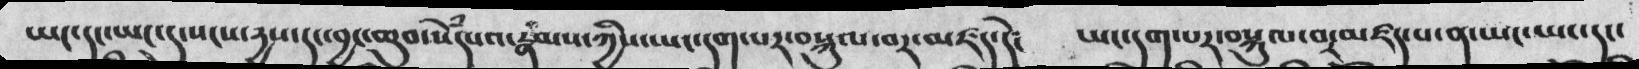ཡང་དང་ཡང་སངས་རྱས་དང་བྱང་ཆུབ་སེཾདཔའ་རྣམས་ཀྱིས་ཡང་དག་པར་བསྐུལ་བར་མཛད་དེ༴ ཡང་དག་པར་བསྐུལ་བར་མཛད་པ་ན་ཡང་ཡང་དང་
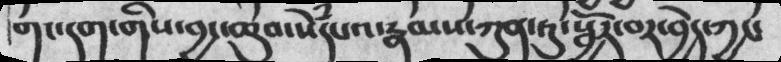གང་དག་གིས་བྱང་ཆུབ་སེཾདཔའ་རྣམས་ཀུན་ཏུ་སྦྱོར་བར་བྱེད་ཀྱང་
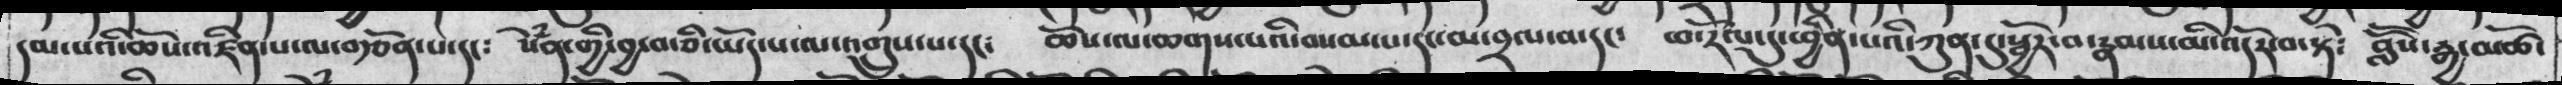དམ་པའི་ཆོས་འཛིན་པ་ལ་བརྩོན་པ་དང༴  སེཾན་གྱི་བྱ་བ་ཅི་ཡོད་པ་ལ་འགྲུས་པ་དང༴  ཆོས་ལ་ཆགས་པའི་བསམ་པ་དང་མ་བྲལ་བ་དང༴  ཕ་རོལ་དུ་ཕྱིན་པའི་ཀུན་དུ་སྦྱོར་བ་རྣམས་མི་འདོར་བ་སྟེ༴  བླཽས་རྒྱ་མཚོ་
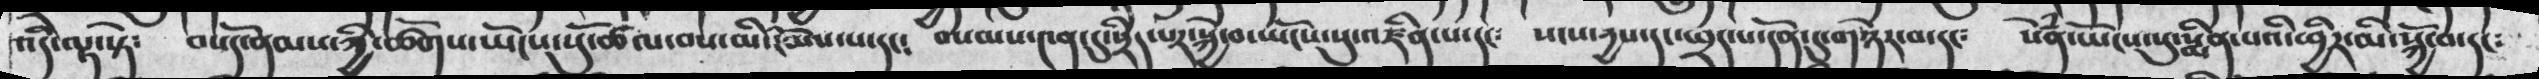འདི་ལྟ་སྟེ༴ བསོད་ནམས་ཀྱི་ཚོགས་ཡོངས་སུ་ཚོལ་བས་མི་ངོམས་པ་དང༴  བསམས་༤ན་དུ་སྲིད་པར་སྐྱེ་བ་ཡོངས་སུ་འཛིན་པ་དང༴  སངས་རྱས་དང་ཕྲད་པ་དོན་དུ་གཉེར་བ་དང༴  སེཾན་ཡོངས་སུ་སྨིན་པའི་ཕྱིར་མི་སྐྱོ་བ་དང༴
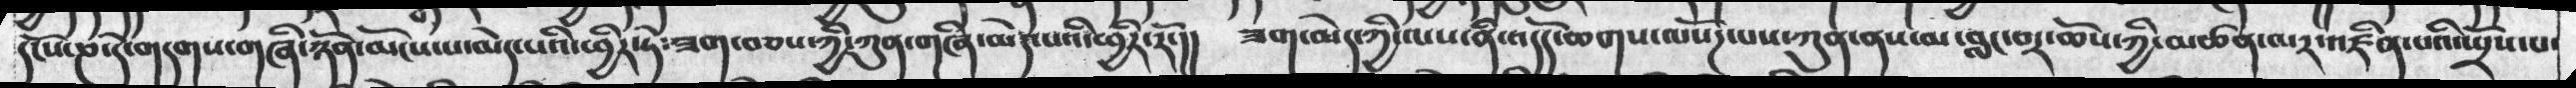དངོས་ཎ་དེ་གདགས་གཞི་ཉོན་མོངས་མེད་པའི་ཕྱིར་ཏེ༴ཟག་བཅས་ཀྱི་ཀུན་གཞི་མེད་པའི་ཕྱིར་རོ་།།  ཟག་མེད་ཀྱི་ལས་ནི་འདོད་ཆགས་ལསོཌ་ཀུན་ནས་མ་བླང་བར་ཆོས་ཀྱི་མཚན་མར་འཛིན་པའི་སྤྲོས་པ་
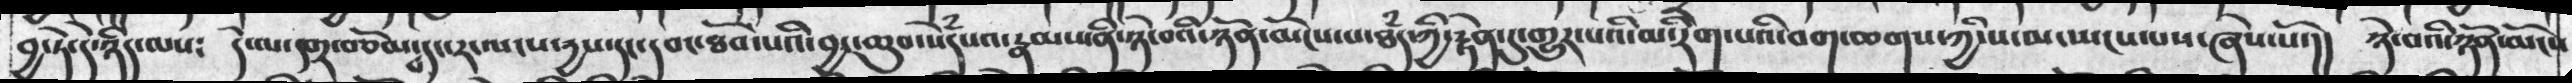བྱ་ཏེ་དེ་ཉིད་ལས༴  དེ་ལ་དགྲ་བཅོམ་དང་རང་སངས་རྱས་དང་དབང་ཐོབ་པའི་བྱང་ཆུབ་སེཾདཔའ་རྣམས་ནི་ཉེ་བའི་ཉོན་མོངས་པ་ཐཾད་ཀྱི་རྟེན་དུ་གྱུར་པའི་མ་རིག་པའི་བག་ཆགས་ཀྱི་ས་མ་སྤངས་པས་ཞེས་སོ།།  ཉེ་བའི་ཉོན་མོངས
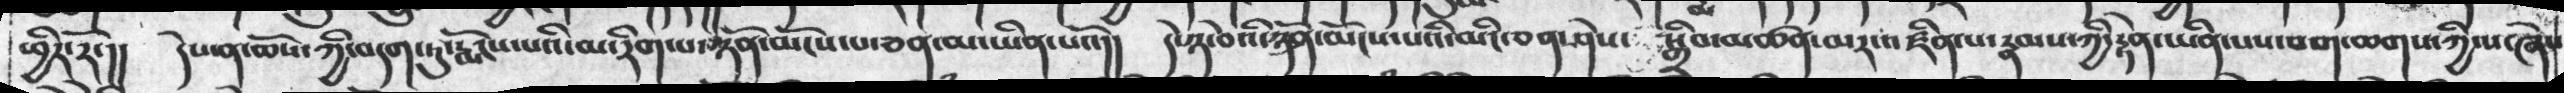ཕྱིར་རོ་།། དེས་ན་ཆོས་ཀྱི་བདག་ཏུ་རྨོངས་པའི་མ་རིག་པ་ཉོན་མོངས་པ་ཅན་མ་ཡིན་པའོ།།  དེ་ཉེ་བའི་ཉོན་མོངས་པའི་མིང་ཅན་ཤེས་ སྒྲིབ་མཚན་མར་འཛིན་པ་རྣམས་ཀྱི་རྟེན་ཡིན་པས་བག་ཆགས་ཀྱིས་ཞེས
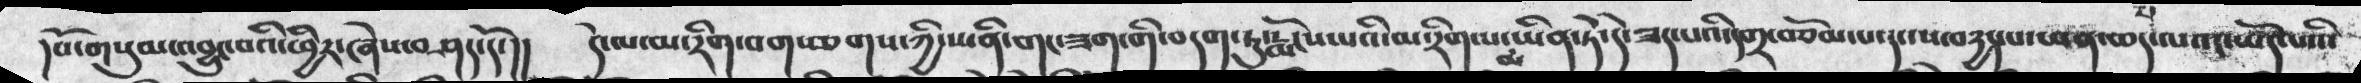།པོ་གསུམ་འབྱུང་བའི་ཕྱིར་ཞེས་བཤད་དོ་།།   དེ་ལ་མ་རིག་བག་ཆགས་ཀྱི་ས་ནི་གང་ཟག་གི་བདག་ཏུ་རྨོངས་པའི་མ་རིག་པ་མ་ཡིན་ཏེ་དེ་ཟད་པའ་དགྲ་བཅོམ་པ་དང་ས་བདྱད་པ་ཡན་ཆད་ལའང་ཡོད་པའི་
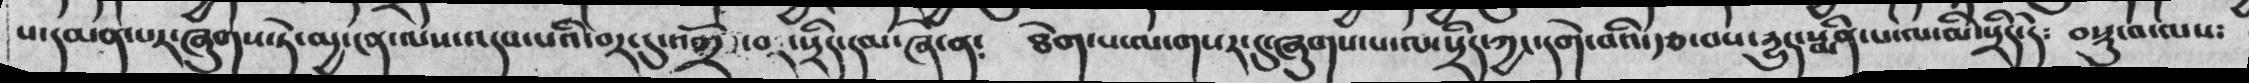པ་དམན་པར་ཞུགས་ཏེ་མྱ་ངན་ལས་འདས་པའི་བར་དུ་འགྲོ་བར་སྲིད་དམ་ཞེ་ན༴  ཐེག་པ་ལ་གསར་དུ་ཞུགས་པ་ལ་སྲིད་ཀྱང་དགེ་བའི་རྩ་བས་རྱུད་སྨིན་པ་ལ་མི་སྲིད་དེ༴  བསྡུ་བ་ལས༴
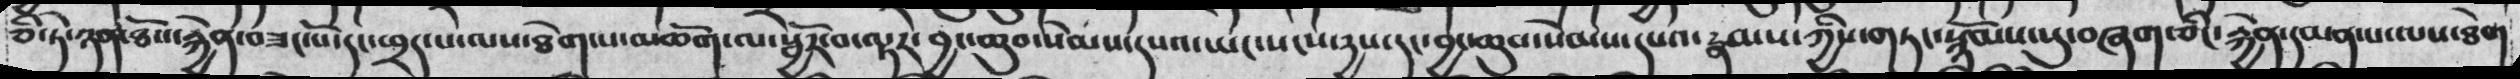ཅི་ཏེ་ཉན་ཐོས་རྐྱེན་བཟང་པོ་དང་ཕྲད་པ་ལས་ཐེག་པ་མཆོག་ལ་སྦྱོར་བ་ལྟར་བྱང་ཆུབ་སེམས་དཔའ་ཡང་སངས་རྱས་དང་བྱང་ཆུབ་སེམས་དཔའ་རྣམས་ཀྱིས་གཏང་སྙོམས་སུ་བཞག་ཅིང་རྐྱེན་དམན་པ་ལས་ཐེག
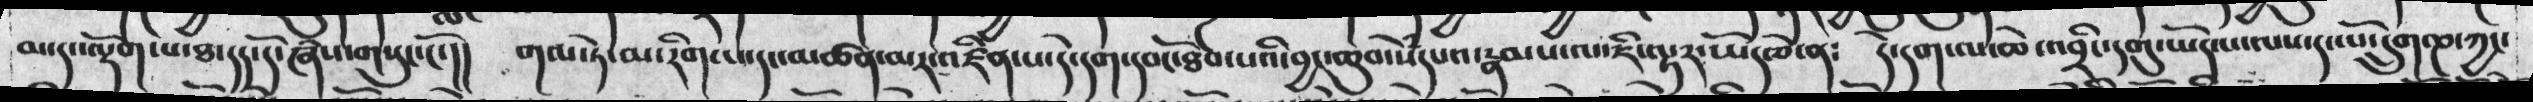མ་དང་ལྡོག་པ་ཐ་དད་དོ་ཞེས་གསུང་ངོ་།།  གལ་ཏེ་མ་རིག་པ་དང་མཚན་མར་འཛིན་པ་དེ་དག་དབང་ཐོབ་པའི་བྱང་ཆུབ་སེཾདཔའ་རྣམས་ལ་ཇི་ལྟར་ཡོད་ཅེ་ན༴  དེ་དག་ལ་ཆེ་འབྲིང་དགུ་ཡོད་པ་ལས་དང་པོ་དྲུག་ཎ་ཀྱང་
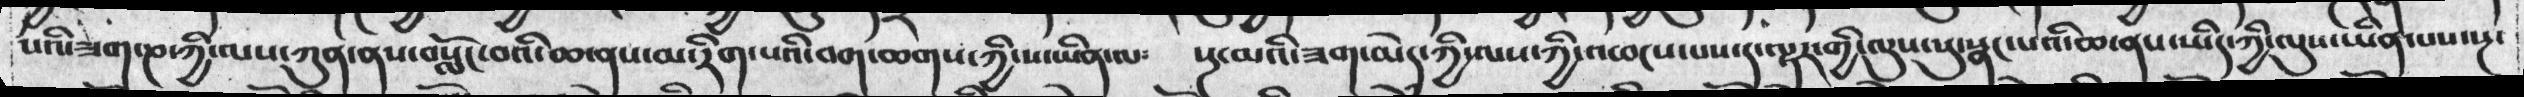པའི་ཟག་ཎ་ཀྱི་ལས་ཀུན་ནས་བསློང་བའི་ཆ་ནས་མ་རིག་པའི་བག་ཆགས་ཀྱི་ས་ཡིན་ལ༴  སྔ་མའི་ཟག་མེད་ཀྱི་ལས་ཀྱི་འཕངས་པས་དང་ད་ལྟར་གྱི་ལུས་སུ་སྣང་པའི་ཆ་ནས་ཡིད་ཀྱི་ལུས་ཡིན་པས་སྔ་
